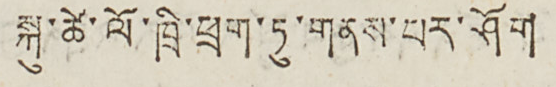སྐུ་ཚེ་ལོ་ཁྲི་ཕྲག་ཏུ་གནས་པར་ཤོག
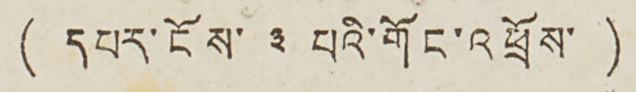( དཔར་ངོས་ ༣ པའི་གོང་འཕྲོས་)
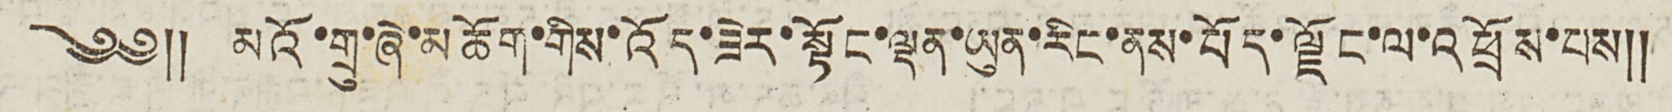༄༅༎ མའོ་གྲུ་ཞེ་མཆོག་གིས་འོད་ཟེར་སྟོང་ལྡན་ཡུན་རིང་ནས་བོད་ལྗོང་ལ་འཕྲོས་པས༎
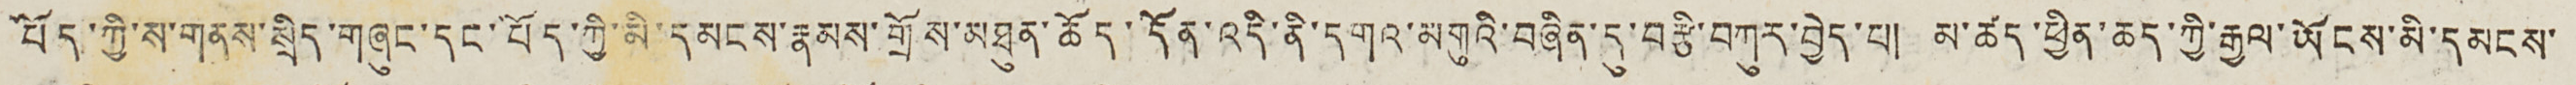བོད་ཀྱི་ས་གནས་སྲིད་གཞུང་དང་བོད་ཀྱི་མི་དམངས་རྣམས་གྲོས་མཐུན་ཆོད་དོན་འདི་ནི་དགའ་མགུའི་བཞིན་དུ་བརྩི་བཀུར་བྱེད་པ། མ་ཚད་ཕྱིན་ཆད་ཀྱི་རྒྱལ་ཡོངས་མི་དམངས་
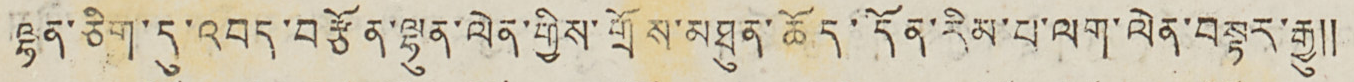ལྷན་ཅིག་དུ་འབད་བརྩོན་ལྷུན་ལེན་གྱིས་གྲོས་མཐུན་ཆོད་དོན་རིམ་པ་ལག་ལེན་བསྟར་རྒྱུ༎
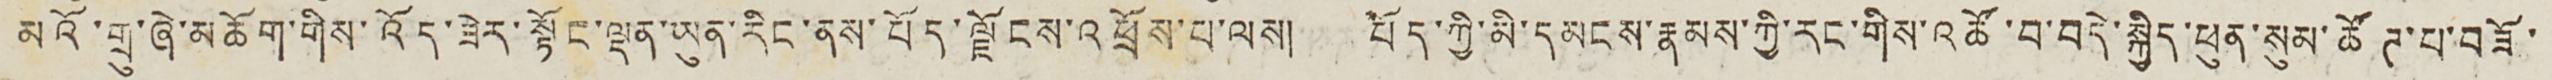མའོ་གྲུ་ཞེ་མཆོག་གིས་འོད་ཟེར་སྟོང་ལྡན་ཡུན་རིང་ནས་བོད་ལྗོངས་འཕྲོས་པ་ལས། བོད་ཀྱི་མི་དམངས་རྣམས་ཀྱི་རང་གིས་འཚོ་བ་བདེ་སྐྱིད་ཕུན་སུམ་ཚོཊ་པ་བཟོ་
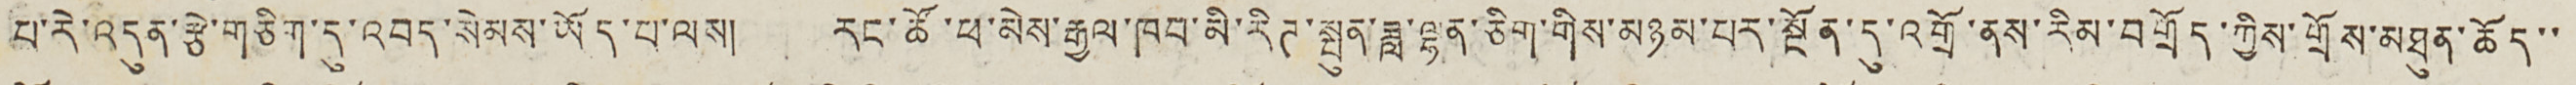པ་རེ་འདུན་རྩེ་གཅིག་དུ་འབད་སེམས་ཡོད་པ་ལས། རང་ཚོ་ཕ་མེས་རྒྱལ་ཁབ་མི་རིཊ་སྤུན་ཟླ་ལྷན་ཅིག་གིས་མཉམ་པར་སྔོན་དུ་འགྲོ་ནས་རིམ་བགྲོད་ཀྱིས་གྲོས་མཐུན་ཆོད་་
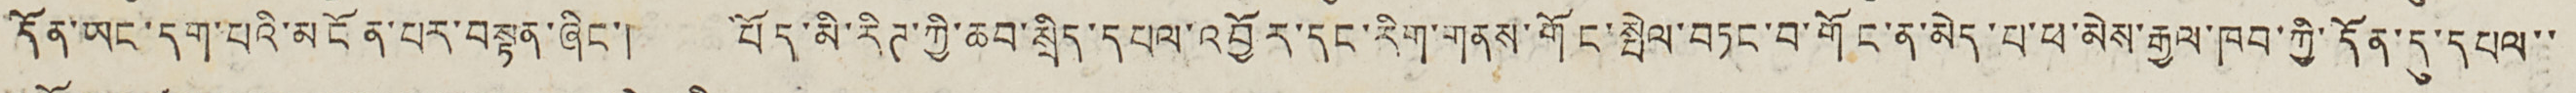དོན་ཡང་དག་པའི་མངོན་པར་བསྟན་ཞིང་། བོད་མི་རིཊ་ཀྱི་ཆབ་སྲིད་དཔལ་འབྱོར་དང་རིག་གནས་གོང་སྤེལ་བཏང་བ་གོང་ན་མེད་པ་ཕ་མེས་རྒྱལ་ཁབ་ཀྱི་དོན་དུ་དཔལ་་
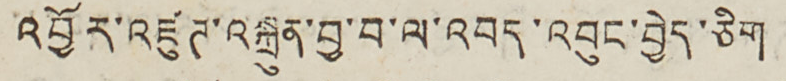འབྱོར་འཛུཊ་འསྐྲུན་བྱ་བ་ལ་འབད་འབུང་བྱེད་ཅིག
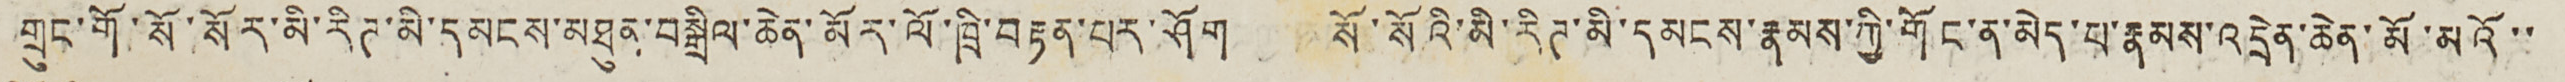གྲུང་གོ་སོ་སོར་མི་རིཊ་མི་དམངས་མཐུན་བསྒྲིལ་ཆེན་མོར་ལོ་ཁྲི་བརྟན་པར་ཤོག སོ་སོའི་མི་རིཊ་མི་དམངས་རྣམས་ཀྱི་གོང་ན་མེད་པ་རྣམས་འདྲེན་ཆེན་མོ་མའོ་་
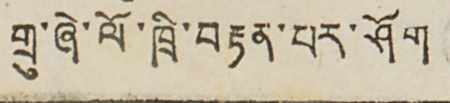གྲུ་ཞེ་ལོ་ཁྲི་བརྟན་པར་ཤོག
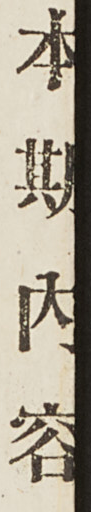本 期 內 容
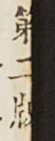第二版
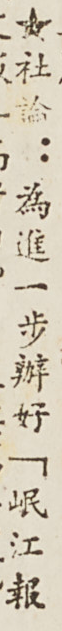★社論：爲進一步辦好「岷江報
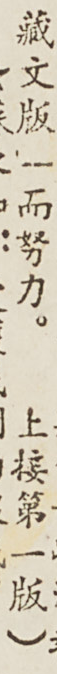藏文版」而努力。 上接第一版）
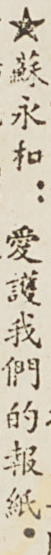★蘇永和：愛護我們的報紙。
